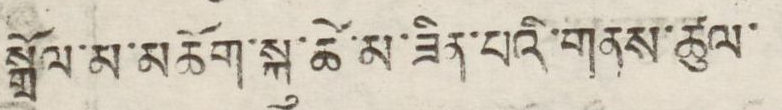སྒྲོན་མ་མཆོག་སྐུ་ཚེ་མ་ཟིན་པའི་གནས་ཚུལ་
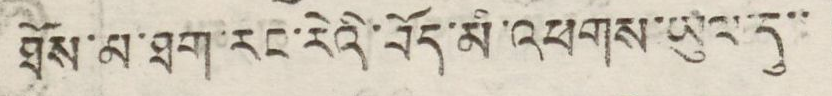ཐོམ་མ་ཐག་རང་རེའི་བོད་མི་འཕགས་ཡུལ་དུ་་
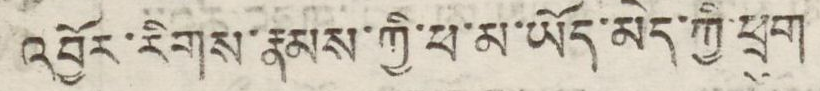འབྱོར་རིགས་རྣམས་ཀྱི་ཕ་མ་ཡོད་མེད་ཀྱི་ཕྲུག
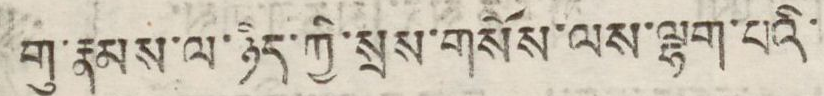གུ་རྣམས་ལ་ཉིད་ཀྱི་སྲས་གསོས་ལས་ལྷག་པའི་
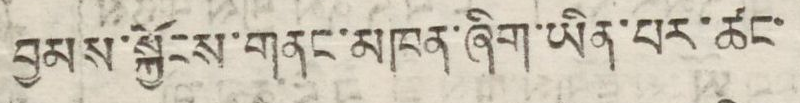བྱམས་སྐྱོངས་གནང་མཁན་ཞིག་ཡིན་པར་ཚང་
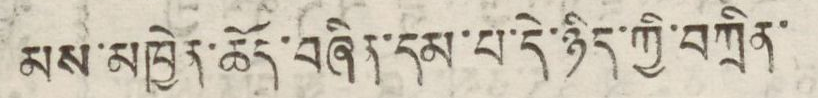མས་མཁྱེན་ཆོད་བཞིན་དམ་པ་དེ་ཉིད་ཀྱི་བཀྲིན་
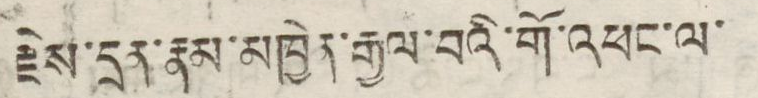རྗེས་དྲན་རྣམ་མཁྱེན་རྒྱལ་བའི་གོ་འཕང་ལ་
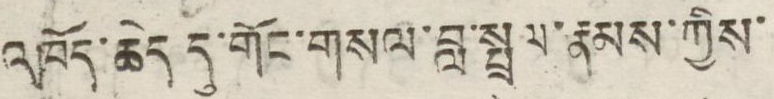འཁོད་ཆེད དུ་གོང་གསལ་བླ་སྤྲལ་རྣམས་ཀྱིས་
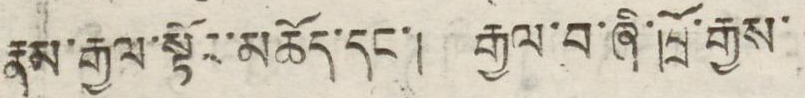རྣམ་རྒྱལ་སྟོང་མཆོད་དང་། རྒྱལ་བ་ཞི་ཁྲོ་རྒྱས་
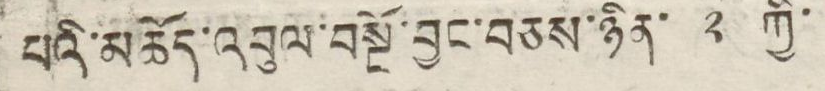པའི་མཆོད་འབུལ་བསྔོ་བྱང་བཅས་ཉིན་ ༢ ཀྱི་
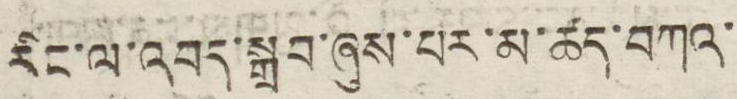རིང་ལ་འབད་སྒྲབ་ཞུས་པར་མ་ཚད་བཀའ་
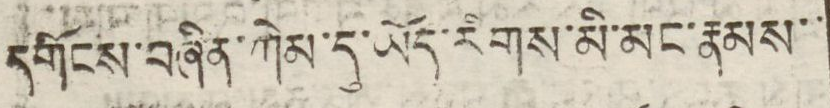དངོངས་བཞིན་ཀེམ་དུ་ཡོད་རིགས་མི་མང་རྣམས་་
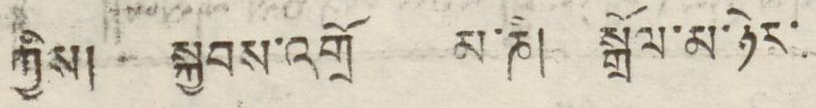ཀྱིས། སྐྱབས་འགྲོ མ་ཎི། སྒྲོན་མ་ཉེར་
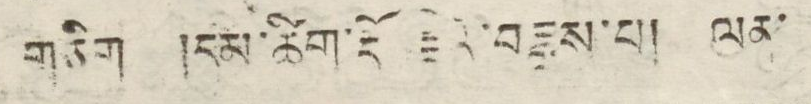གཅིག །དམ་ཚིག་རྡོ རྗེའི་བཟླས་པ། ལན་
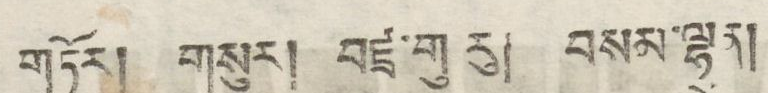གཏོར། གསུར། བཛྲ་གུ རུ། བསམ་ལྷུན།
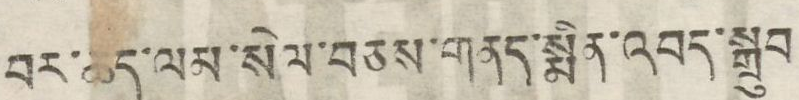བར་ཆད་ལམ་སེལ་བཅས་གནད་སྨིན་འབད་སྒྲུབ
